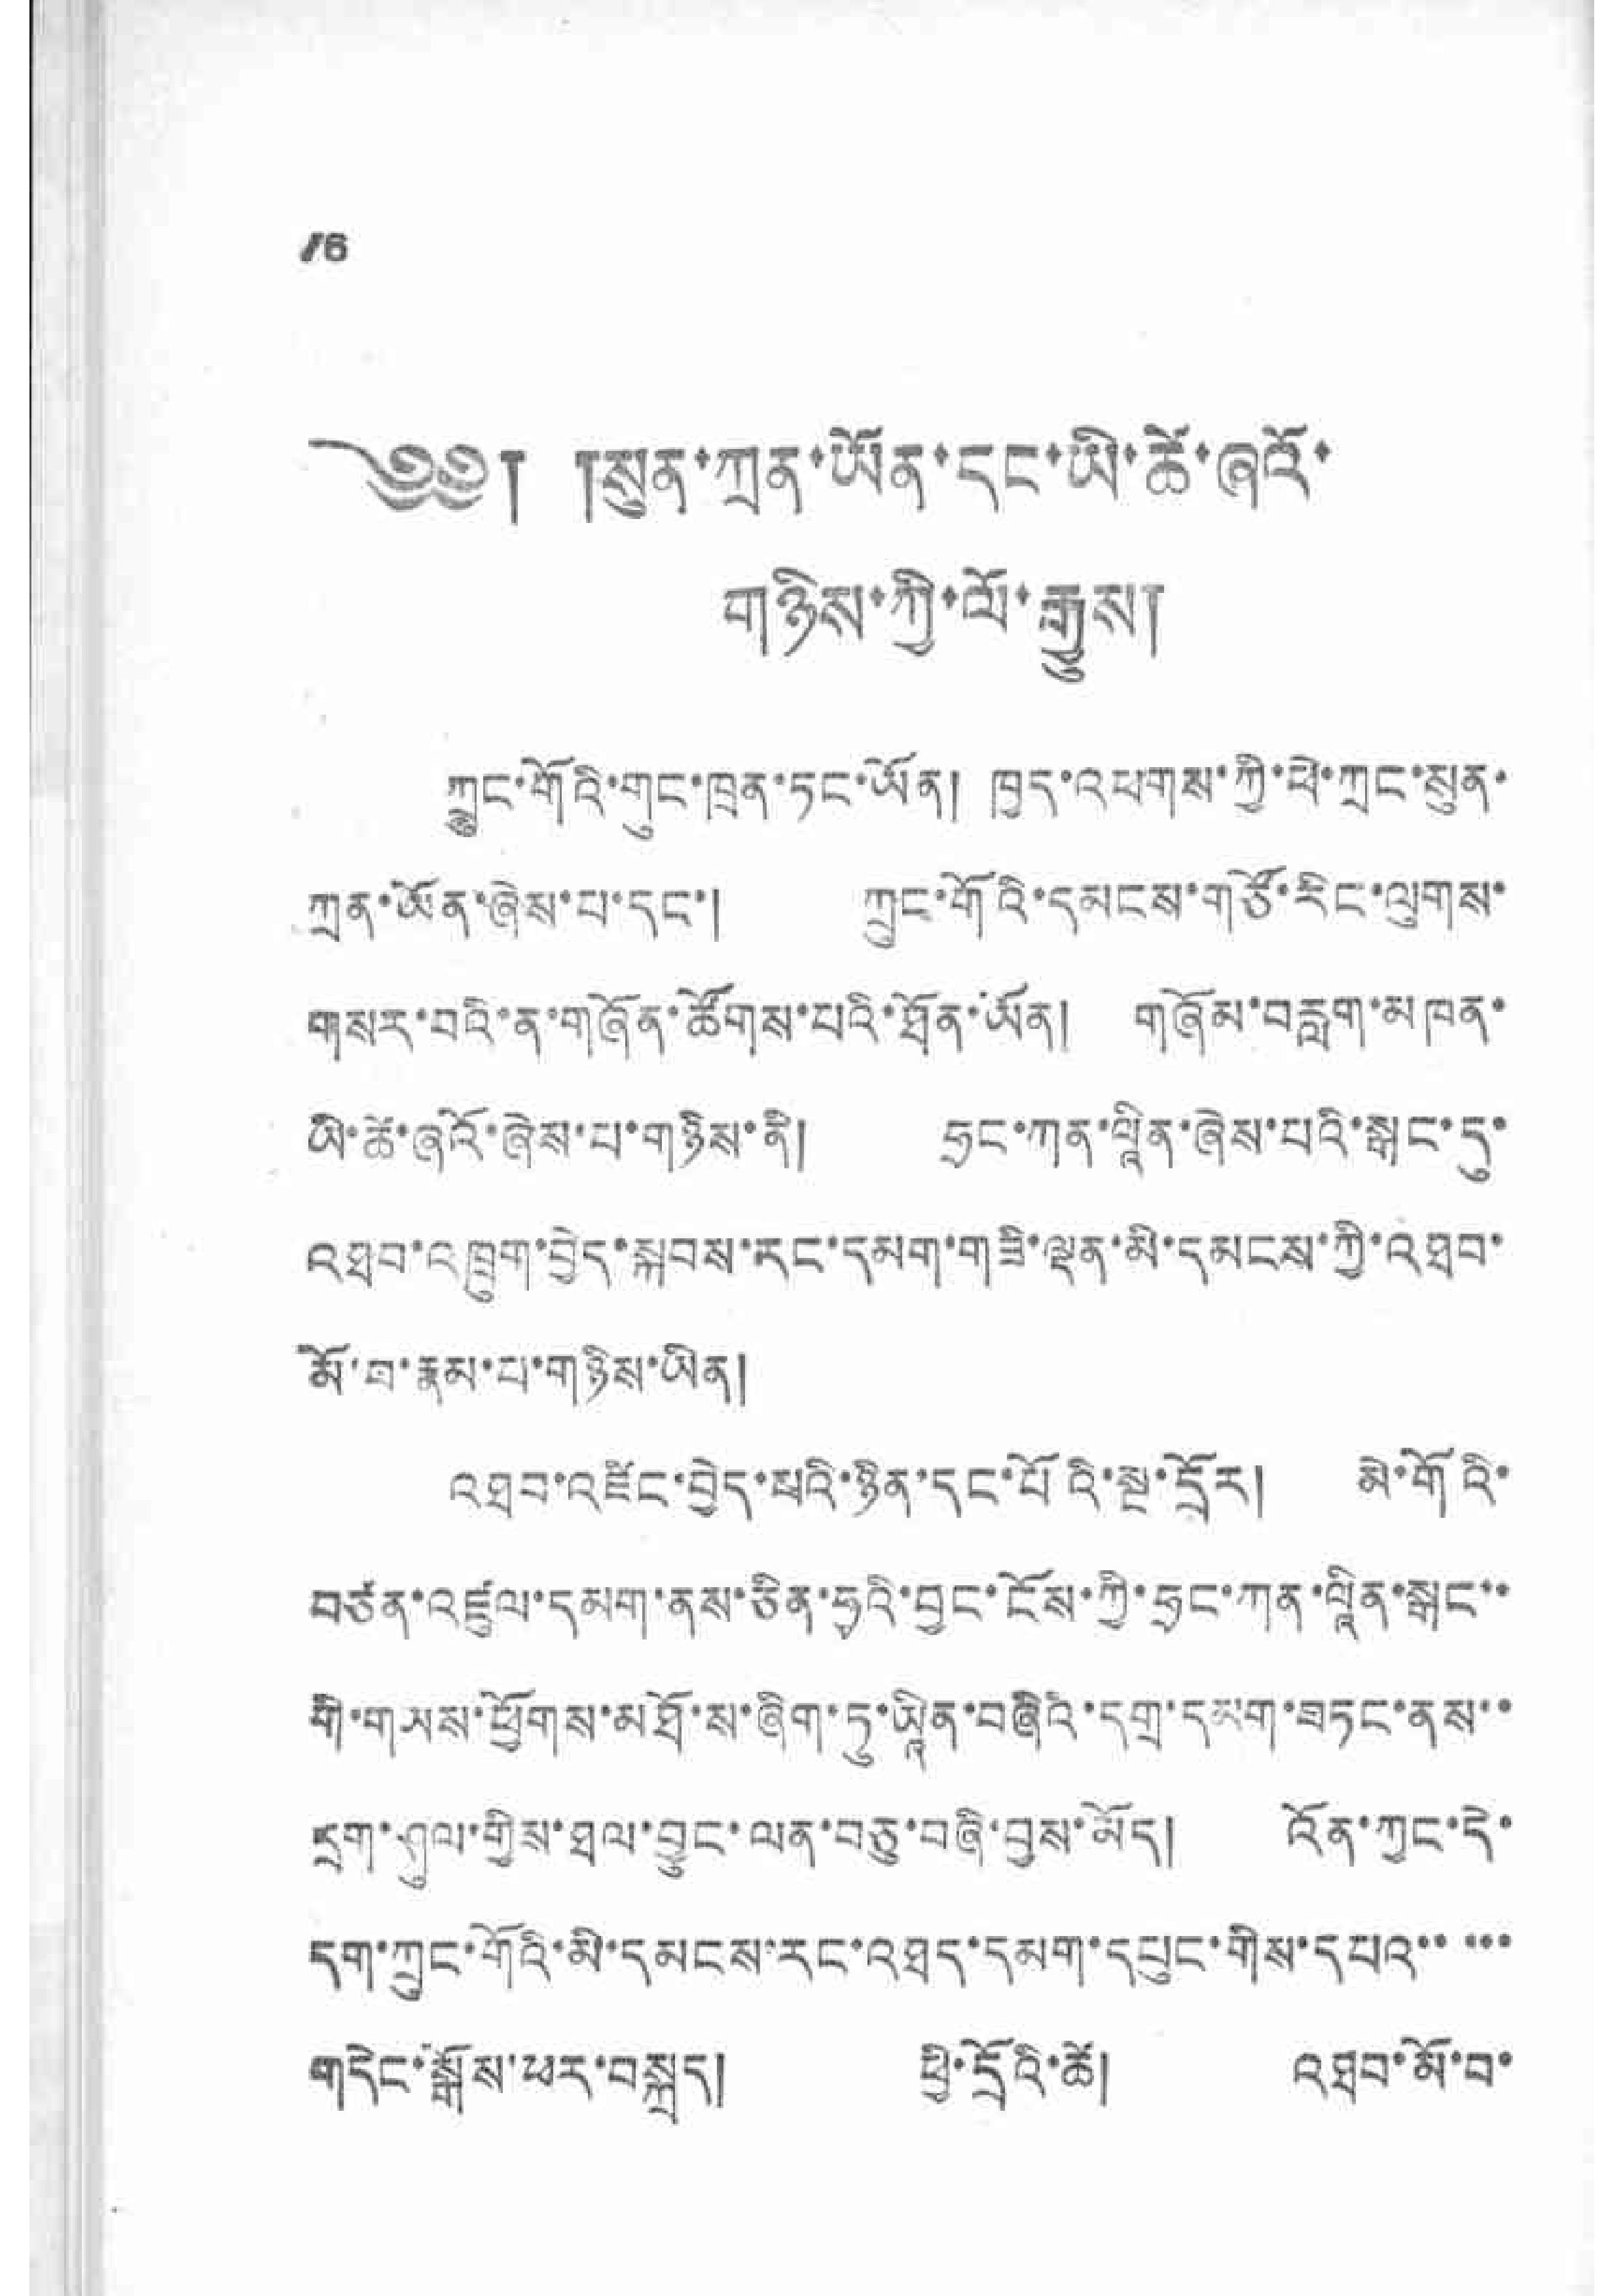18
༄༅། །སུན་ཀྲན་ཡོན་དང་ཡི་ཚེ་ཞའོ་
གཉིས་ཀྱི་ལོ་རྒྱུས།
ཀྲུང་གོའི་གུང་ཁྲན་ཏང་ཡོན། ཁྱད་འཕགས་ཀྱི་ཕེ་ཀྲང་སུན་
ཀྲན་ཡོན་ཞེས་པ་དང་། ཀྲུང་གོའི་དམངས་གཙོ་རིང་ལུགས་
གསར་བའི་ན་གཞོན་ཚོགས་པའི་ཐོན་ཡོན། གཞོམ་བརླག་མཁན་
ཡི་ཚེ་མའོ་ཞེས་པ་གཉིས་ནི། ཧྲང་ཀན་ལཱིན་ཞེས་པའི་སྒང་དུ་
འཐབ་འཁྲུག་བྱེད་སྐབས་དང་དམག་གཟི་ལྡན་མི་དམངས་ཀྱི་འཐབ་
མོ་བ་རྣམ་པ་གཉིས་ཡིན།
འཐབ་འཛིང་བྱེད་པའི་ཉིན་དང་པོའི་སྔ་དྲོར། མེ་གོའི་
བཙན་འཛུལ་དམག་ནས་ཅིན་ཧྭའི་བྱང་ངོས་ཀྱི་ཧྲང་ཀུན་ལཱིན་སྒང་་
རྒྱ་གཡས་ཕྱོགས་མཐོ་ས་ཞིག་ཏུ་ཡཱིན་བཞིའི་དགྲ་དམག་བཏང་ནས་་
དྲག་ཤུལ་གྱིས་ཐལ་བྱུང་ལན་བཅུ་བཞི་བྱས་མོད། འོན་ཀྱང་དེ་
དག་ཀྲུང་གོའི་མི་དམངས་རང་འཐད་དམག་དཔུང་གིས་དཔའ་་་་་
གདེང་སྒོས་ཕར་བསྐྲད། ཕྱི་དྲོའི་ཚེ། འཐབ་མོ་བ་
